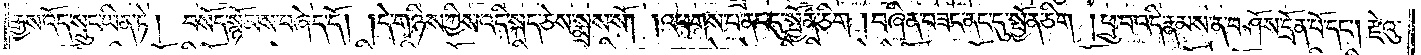རྒྱས་འོད་སྲུང་ཡིན་ཏེ། བསོད་སྙོམས་བཞེད་དོ། །དེ་གཉིས་ཀྱིས་འདི་སྐད་ཅེས་སྨྲས་སོ། །འཕགས་པ་ནང་དུ་སྤྱོན་ཅིག །བཞིན་བཟང་ནང་དུ་སྤྱོན་ཅིག །ཕྲུ་བ་འདི་རྣམས་ན་བཤོས་དྲོན་པོ་དང༌། རྫེའུ་
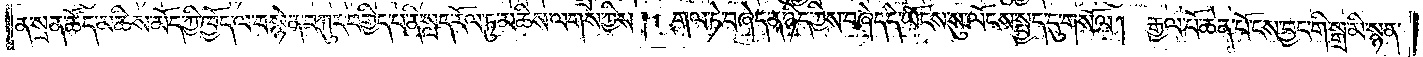ན་སྲན་ཚོད་མཆིས་མོད་ཀྱི་ཁྱོད་ལ་བསྙེན་བཀུར་བགྱིད་པ་ནི་སླད་རོལ་ཏུ་མཆིས་ལགས་ཀྱིས། གལ་ཏེ་བཞེད་ན་ཉིད་ཀྱིས་བཞེད་དེ་ཡོངས་སུ་ལོངས་སྤྱད་དུ་གསོལ། རྒྱལ་པོ་ཆེན་པོ་ངས་བྱང་གི་སྒྲ་མི་སྙན་
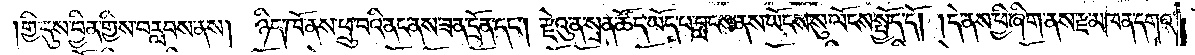གྱི་དུས་བྱིན་གྱིས་བརླབས་ནས། ཉིད་ཁོ་ནས་ཕྲུ་བའི་ནང་ནས་ཟན་དྲོན་དང༌། རྫེའུ་ན་སྲན་ཚོད་ཡོད་པ་བླངས་ནས་ཡོངས་སུ་ལོངས་སྤྱོད་དོ། །དེ་ནས་ཕྱི་ཞིག་ནས་རྫ་མཁན་དགའ་
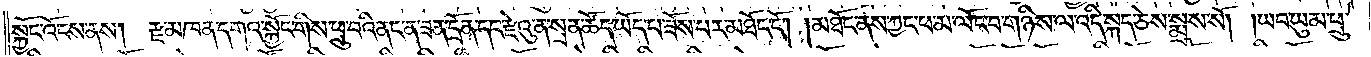སྐྱོང་འོངས་ནས། རྫ་མཁན་དགའ་སྐྱོང་གིས་ཕྲུ་བའི་ནང་ན་ཟན་དྲོན་དང་རྫེའུ་ན་སྲན་ཚོད་ཡོད་པ་ཟོས་པར་མཐོང་ངོ༌། །མཐོང་ནས་ཀྱང་ཕ་མ་ལོང་བ་གཉིས་ལ་འདི་སྐད་ཅེས་སྨྲས་སོ། །ཡབ་ཡུམ་ཕྲུ་
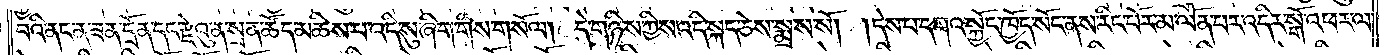བའི་ནང་ན་ཟན་དྲོན་དང་རྫེའུ་ན་སྲན་ཚོད་མཆིས་པ་འདི་སུ་ཞིག་གིས་གསོལ། དེ་གཉིས་ཀྱིས་འདི་སྐད་ཅེས་སྨྲས་སོ། །དེས་པ་དགའ་སྐྱོང་ཁྱོད་སོང་ནས་རིང་པོར་མ་ལོན་པར་འདིར་སྒོ་འཕར་ལ་
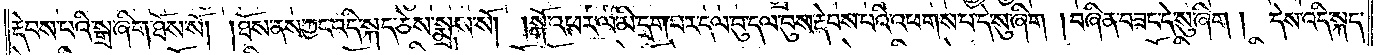རྡེབས་པའི་སྒྲ་ཞིག་ཐོས་སོ། །ཐོས་ནས་ཀྱང་འདི་སྐད་ཅེས་སྨྲས་སོ། །སྒོ་འཕར་ལ་མི་དྲག་པར་དལ་བུ་དལ་བུས་རྡེབས་པའི་འཕགས་པ་དེ་སུ་ཞིག །བཞིན་བཟང་དེ་སུ་ཞིག། དེས་འདི་སྐད་
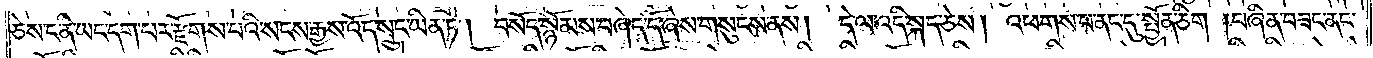ཅེས་ང་ནི་ཡང་དག་པར་རྫོགས་པའི་སངས་རྒྱས་འོད་སྲུང་ཡིན་ཏེ། བསོད་སྙོམས་བཞེད་དོ་ཞེས་གསུངས་ནས། དེ་ལ་འདི་སྐད་ཅེས། འཕགས་པ་ནང་དུ་སྤྱོན་ཅིག །བཞིན་བཟང་ནང་
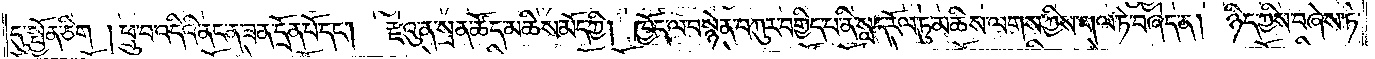དུ་སྤྱོན་ཅིག །ཕྲུ་བ་འདིའི་ནང་ན་ཟན་དྲན་པོ་དང༌། རྫེའུ་ན་སྲན་ཚོད་མཆིས་མོད་ཀྱི། ཁྱོད་ལ་བསྙེན་བཀུར་བགྱིད་པ་ནི་སླད་རོལ་ཏུ་མཆིས་ལགས་ཀྱིས་གལ་ཏེ་བཞེད་ན། ཉིད་ཀྱིས་བཞེས་ཏེ་
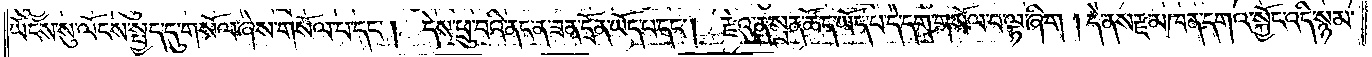ཡོངས་སུ་ལོངས་སྤྱད་དུ་གསོལ་ཞེས་གསོལ་པ་དང༌། དེས་ཕྲུ་བའི་ནང་ན་ཟན་དྲོན་ཡོད་པ་དང༌། རྫེའུ་ན་སྲན་ཚོད་ཡོད་པ་དེ་དག་གསོལ་བ་ལྟ་ཞིག །དེ་ནས་རྫ་མཁན་དགའ་སྐྱོང་འདི་སྙམ་
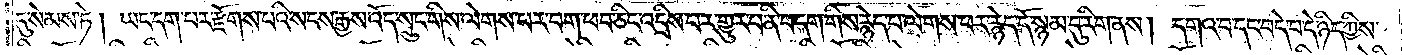དུ་སེམས་ཏེ། ཡང་དག་པར་རྫོགས་པའི་སངས་རྒྱས་འོད་སྲུང་གིས་ལེགས་པར་བག་ཕབ་ཅིང་འདྲིས་པར་གྱུར་པ་ནི་བདག་གིས་རྙེད་པ་ལེགས་པར་རྙེད་དོ་སྙམ་དུ་རིག་ནས། དགའ་བ་དང་བདེ་བ་དེ་ཉིད་ཀྱིས་
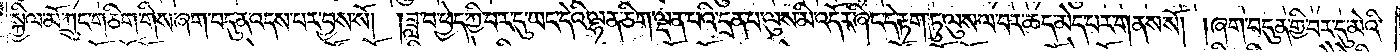སྐྱིལ་མོ་ཀྲུང་གཅིག་གིས་ཞག་བདུན་འདས་པར་བྱས་སོ། །ཟླ་བ་ཕྱེད་ཀྱི་བར་དུ་ཡང་དེའི་ལྷན་ཅིག་ལྡན་པའི་དྲན་པ་ལུས་མི་འདོར་ཞིང་དེ་རྟག་ཏུ་ལུས་ལ་བར་ཆད་མེད་པར་གནས་སོ། །ཞག་བདུན་གྱི་བར་དུ་མེའི་
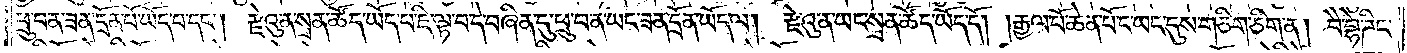ཕྲུ་བ་ན་ཟན་དྲོན་པོ་ཡོད་པ་དང༌། རྫེའུ་ན་སྲན་ཚོད་ཡོད་པ་ཇི་ལྟ་བ་དེ་བཞིན་དུ་ཕྲུ་བ་ན་ཡང་ཟན་དྲོན་ཡོད་ལ། རྫེའུ་ན་ཡང་སྲན་ཚོད་ཡོད་དོ། །རྒྱལ་པོ་ཆེན་པོ་ང་ཡང་དུས་གཅིག་ཅིག་ན། བཻ་བྷེ་ཌིང་
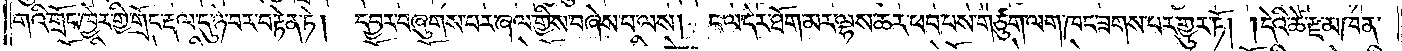གའི་གྲོང་ཁྱེར་གྱི་གྲོང་རྡལ་དུ་ཉེ་བར་བརྟེན་ཏེ། དབྱར་བཞུགས་པར་ཞལ་གྱིས་བཞེས་པ་ལས། ང་ལ་དེར་ཐོག་མར་ལྷས་ཆར་ཕབ་པས་གཙུག་ལག་ཁང་ཟགས་པར་གྱུར་ཏོ། །དེའི་ཚེ་རྫ་མཁན་
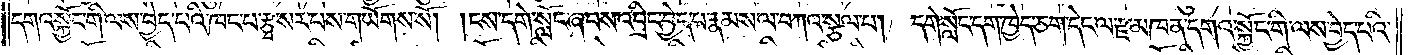དགའ་སྐྱོང་གི་ལས་བྱེད་པའི་ཁང་པ་རྩྭ་སར་པས་གཡོགས་སོ། །ངས་དགེ་སློང་ཞབས་འབྲིང་བྱེད་པ་རྣམས་ལ་བཀའ་སྩལ་པ། དགེ་སློང་དག་ཁྱེད་ཅག་དེང་ལ་རྫ་མཁན་དགའ་སྐྱོང་གི་ལས་བྱེད་པའི་
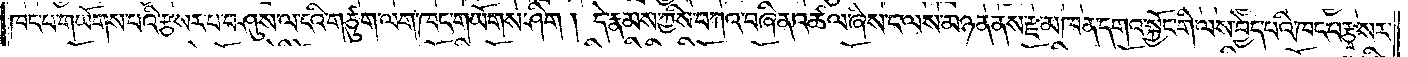ཁང་པ་གཡོགས་པའི་རྩ་སར་པ་བཤུས་ལ་ངའི་གཙུག་ལག་ཁང་གཡོགས་ཤིག །དེ་རྣམས་ཀྱིས་བཀའ་བཞིན་འཚལ་ཞེས་ང་ལས་མཉན་ནས་རྫ་མཁན་དགའ་སྐྱོང་གི་ལས་བྱེད་པའི་ཁང་པ་རྩྭ་སར་
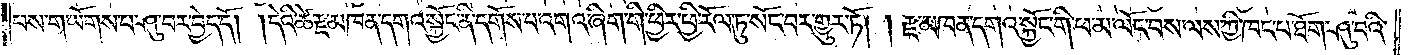པས་གཡོགས་པ་ཤུ་བར་བྱེད་དོ། །དེའི་ཚེ་རྫ་མཁན་དགའ་སྐྱོང་ནི་དགོས་པ་འགའ་ཞིག་གི་ཕྱིར་ཕྱི་རོལ་ཏུ་སོང་བར་གྱུར་ཏོ། །རྫ་མཁན་དགའ་སྐྱོང་གི་ཕ་མ་ལོང་བས་ལས་ཀྱི་ཁང་པ་ཐོག་ཤུ་བའི་
